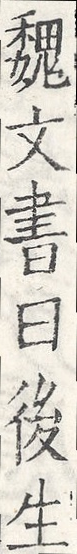魏文書曰後生
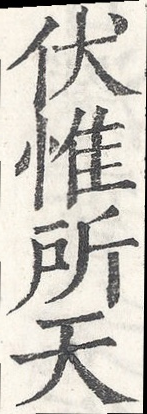伏惟所天
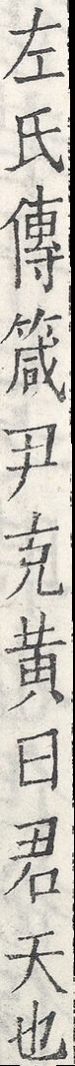左氏傳箴尹克黃曰君天也
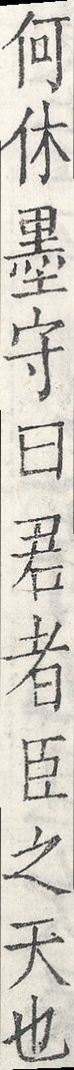何休墨守曰君者臣之天也
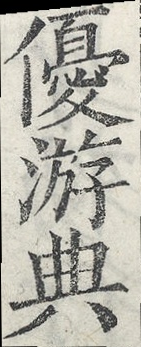優游典
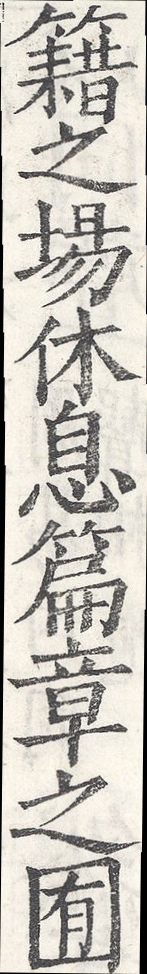籍之場休息篇章之囿
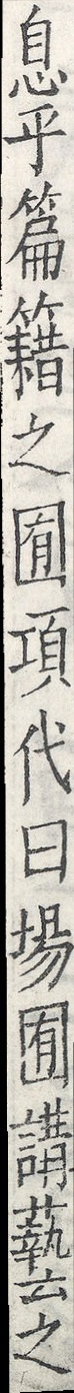息乎篇籍之囿項代曰場囿講藝之
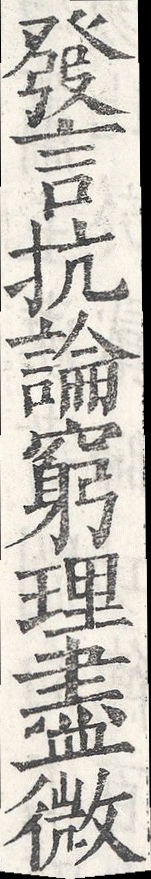發言抗論窮理盡微
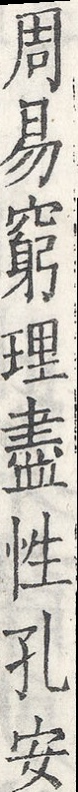周易窮理盡性孔安
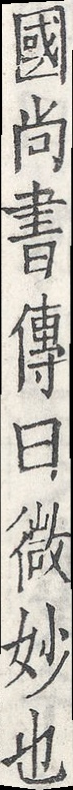國尚書傳曰微妙也
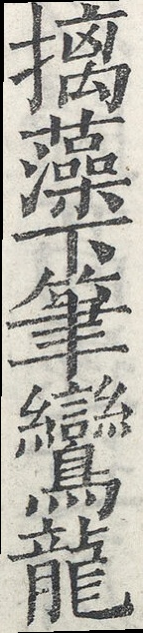摛藻下筆鸞龍
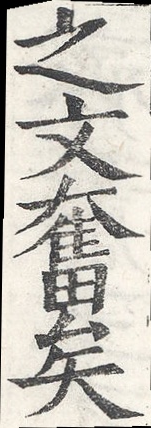之文奮矣
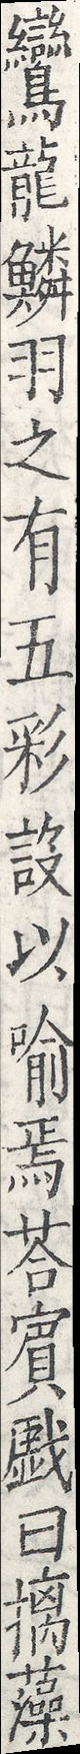鸞龍鱗羽之有五彩設以喻焉荅賓戲曰摛藻
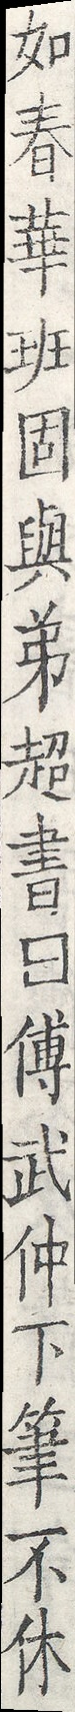如春華班固與弟超書曰傅武仲下筆不休
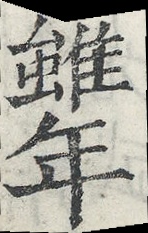雖年
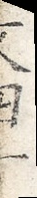文四十
